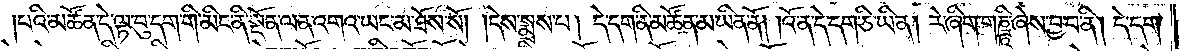།པའི་མཚོན་དེ་ལྟ་བུ་དག་གི་མིང་ནི་སྔོན་ལན་འགའ་ཡང་མ་ཐོས་སོ། །དེས་སྨྲས་པ། དེ་དག་ནི་མཚོན་མ་ཡིན་ནོ། །འོ་ན་དེ་དག་ཅི་ཡིན། རེ་ཞིག་གཎྜཱི་ཞེས་བྱ་བ་ནི། དེ་དག་
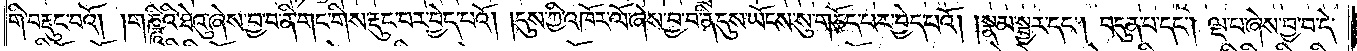གི་བརྡུང་བའོ། །གཎྜཱིའི་ཐེའུ་ཞེས་བྱ་བ་ནི་གང་གིས་རྡུང་བར་བྱེད་པའོ། །དུས་ཀྱི་འཁོར་ལོ་ཞེས་བྱ་བ་ནི་དུས་ཡོངས་སུ་གཅོད་པར་བྱེད་པའོ། །སྣམ་སྦྱར་དང༌། བདུན་པ་དང༌། ལྔ་པ་ཞེས་བྱ་བ་དེ་
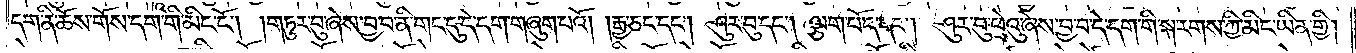དག་ནི་ཆོས་གོས་དག་གི་མིང་ངོ༌། །གཏུར་བུ་ཞེས་བྱ་བ་ནི་གང་དུ་དེ་དག་གཞུག་པའོ། །རྒྱ་ཅང་དང༌། ཤུར་བུ་དང༌། ལྕག་པོད་དང༌། ཤུར་བུ་ཕྲེའུ་ཞེས་བྱ་བ་དེ་དག་གི་སྐ་རགས་ཀྱི་མིང་ཡིན་གྱི།
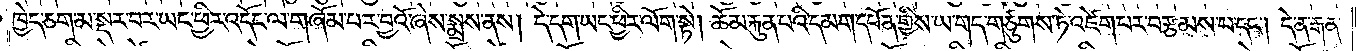ཁྱེད་ཅག་མ་སྡར་བར་ཡང་ཕྱིར་འདོང་ལ་གཞོམ་པར་བྱའོ་ཞེས་སྨྲས་ནས། དེ་དག་ཡང་ཕྱིར་ལོག་སྟེ། ཆོམ་རྐུན་པའི་དམག་དཔོན་གྱིས་ཡ་གད་གཙུགས་ཏེ་འཛེག་པར་བརྩམས་པ་དང༌། དེ་ན་རྒན་
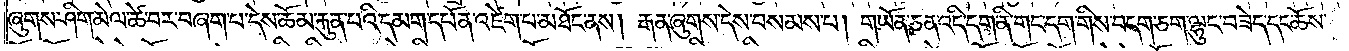ཞུགས་ཤིག་མེལ་ཚེ་བར་བཞག་པ་དེས་ཆོམ་རྐུན་པའི་དམག་དཔོན་འཛེག་པ་མཐོང་ནས། རྒན་ཞུགས་དེས་བསམས་པ། གཡོན་ཅན་འདི་དག་ནི་གང་དག་གིས་བདག་ཅག་ལྷུང་བཟེད་དང་ཆོས་
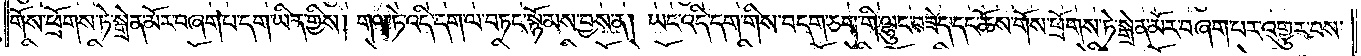གོས་ཕྲོགས་ཏེ་སྒྲེན་མོར་བཞག་པ་དག་ཡིན་གྱིས། གལ་ཏེ་འདི་དག་ལ་བཏང་སྙོམས་བྱས་ན། ཡང་འདི་དག་གིས་བདག་ཅག་གི་ལྷུང་བཟེད་དང་ཆོས་གོས་ཕྲོགས་ཏེ་སྒྲེན་མོར་བཞག་པར་འགྱུར་བས་
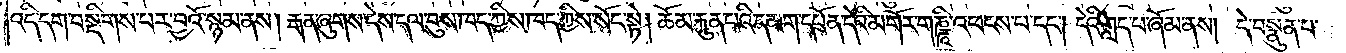འདི་དག་བསྡིགས་པར་བྱའོ་སྙམ་ནས། རྒན་ཞུགས་དེས་དལ་བུས་ཁད་ཀྱིས་ཁད་ཀྱིས་སོང་སྟེ། ཆོམ་རྐུན་པའི་དམག་དཔོན་དེའི་མགོར་གཎྜཱི་འཕངས་པ་དང༌། དེའི་གླད་པ་ཞོམ་ནས། དེ་བསྣུན་པ་
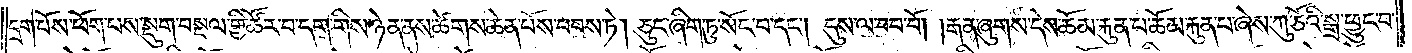དྲག་པོས་ཕོག་པས་སྡུག་བསྔལ་གྱི་ཚོར་བ་དག་གིས་ཉེན་ནས་ཚེགས་ཆེན་པོས་བབས་ཏེ། ཅུང་ཞིག་ཏུ་སོང་བ་དང༌། དུས་ལ་བབ་བོ། །རྒན་ཞུགས་དེས་ཆོམ་རྐུན་པ་ཆོམ་རྐུན་པ་ཞེས་ཀུ་ཙོའི་སྒྲ་ཕྱུང་བ་
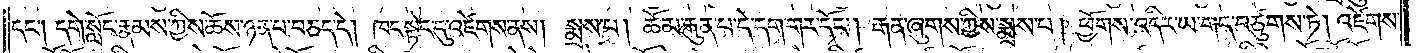དང༌། དགེ་སློང་རྣམས་ཀྱིས་ཆོས་ཉན་པ་བཅད་དེ། ཁང་སྟེང་དུ་འཛེགས་ནས། སྨྲས་པ། ཆོམ་རྐུན་པ་དེ་དག་གར་དོང༌། རྒན་ཞུགས་ཀྱིས་སྨྲས་པ། ཕྱོགས་འདིར་ཡ་གད་བཙུགས་ཏེ། འཛེགས་
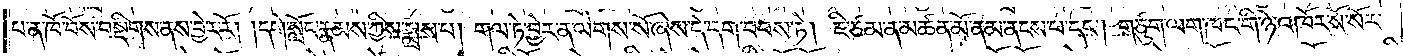པ་ན་ཁོ་བོས་བསྡིགས་ནས་བྱེར་རོ། །དགེ་སློང་རྣམས་ཀྱིས་སྨྲས་པ། གལ་ཏེ་བྱེར་ན་ལེགས་སོ་ཞེས་དེ་དག་བབས་ཏེ། ཇི་ཙམ་ན་མཚན་མོ་ནམ་ནངས་པ་དང༌། གཙུག་ལག་ཁང་གི་ཉེ་འཁོར་སོ་སོར་
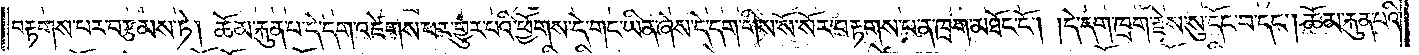བརྟགས་པར་བརྩམས་ཏེ། ཆོམ་རྐུན་པ་དེ་དག་འཛེགས་པར་གྱུར་པའི་ཕྱོགས་དེ་གང་ཡིན་ཞེས་དེ་དག་གིས་སོ་སོར་བརྟགས་པ་ན་ཁྲག་མཐོང་ངོ༌། །དེ་དག་ཁྲག་རྗེས་སུ་དོང་བ་དང༌། ཆོམ་རྐུན་པའི་
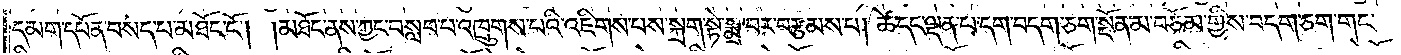དམག་དཔོན་བསད་པ་མཐོང་ངོ༌། །མཐོང་ནས་ཀྱང་བསླབ་པ་འཁྲུགས་པའི་འཇིགས་པས་སྐྲག་སྟེ་སྨྲ་བར་བརྩམས་པ། ཚེ་དང་ལྡན་པ་དག་བདག་ཅག་སྔོན་མ་བཅོམ་གྱིས་བདག་ཅག་གང་
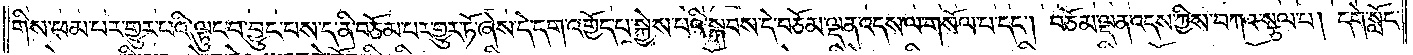གིས་ཕམ་པར་གྱུར་པའི་ལྟུང་བ་བྱུང་པས་ད་ནི་བཅོམ་པར་གྱུར་ཏོ་ཞེས་དེ་དག་འགྱོད་པ་སྐྱེས་པའི་སྐབས་དེ་བཅོམ་ལྡན་འདས་ལ་གསོལ་པ་དང༌། བཅོམ་ལྡན་འདས་ཀྱིས་བཀའ་སྩལ་པ། དགེ་སློང་
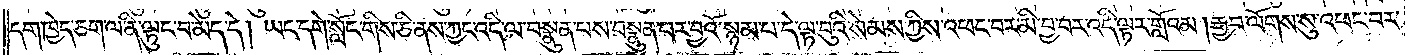དག་ཁྱེད་ཅག་ལ་ནི་ལྟུང་བ་མེད་དེ། ཡང་དགེ་སློང་གིས་ཅི་ནས་ཀྱང་འདི་ལ་བསྣུན་པས་བསྣུན་པར་བྱའོ་སྙམ་པ་དེ་ལྟ་བུའི་སེམས་ཀྱིས་འཕང་བར་མི་བྱ་བར་འདི་ལྟར་གློའམ། རྒྱབ་ལོགས་སུ་འཕང་བར་
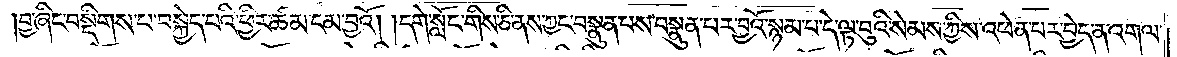བྱ་ཞིང་བསྡིགས་པ་བསྐྱེད་པའི་ཕྱིར་ཚམ་ངམ་བྱའོ། །དགེ་སློང་གིས་ཅི་ནས་ཀྱང་བསྣུན་པས་བསྣུན་པར་བྱའོ་སྙམ་པ་དེ་ལྟ་བུའི་སེམས་ཀྱིས་འཕེན་པར་བྱེད་ན་འགལ་
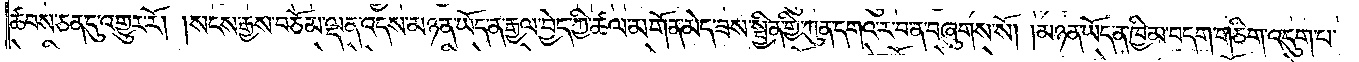ཚབས་ཅན་དུ་འགྱུར་རོ། །སངས་རྒྱས་བཅོམ་ལྡན་འདས་མཉན་ཡོད་ན་རྒྱལ་བྱེད་ཀྱི་ཚལ་མགོན་མེད་ཟས་སྦྱིན་གྱི་ཀུན་དགའ་ར་བ་ན་བཞུགས་སོ། །མཉན་ཡོད་ན་ཁྱིམ་བདག་གཅིག་འདུག་པ་
